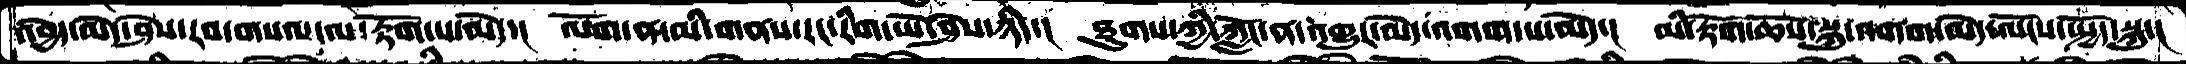འབྱེད་མེད་ཤེས་རབ་གསལ་ལ་རྟོག་པ་མེད་།  ལོག་ན་མི་གནས་རང་རིག་ཡེ་ཤེས་ཉིད་།  ཐུགས་ཀྱི་ཀློང་ན་འགྱུར་མེད་འགག་པ་མེད་།  མི་རྟོག་ཆོས་སྐུ་འགག་མེད་ལོངས་སྤྱོད་སྐུ་།
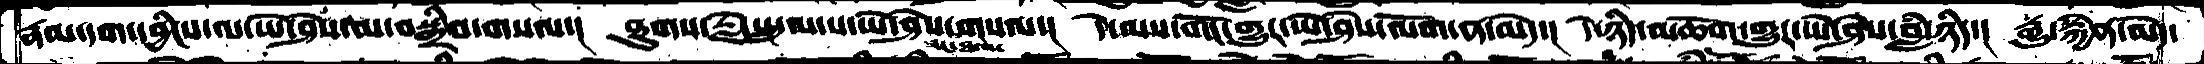རྣམ་དག་དབྱིངས་ལ་ཡེ་ཤེས་མ་བསྒྲིབ་གསལ་།  ཐུགས་རྗེ་སྤྲུལ་པ་ཡེ་ཤེས་ཟང་ཐལ་གསལ་། དེ་ལས་གོང་གྱུར་ཡེ་ཤེས་ལོག་ན་མེད་། དེ་ཉིད་མཆོག་གྱུར་ཡེ་ཤེས་བླཾ་ཉིད་། རྒྱུ་རྐྱེན་མེད་
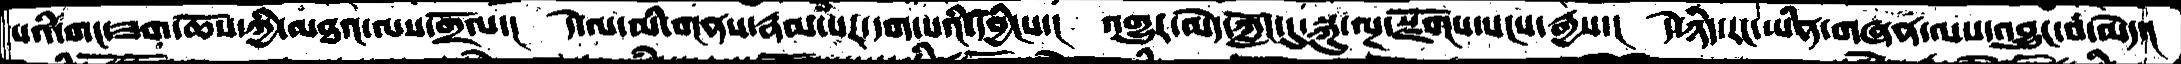པའི་གང་ཟག་ཆོས་ཀྱི་མཐའ་ལས་གྲོལ་།  དེ་ལ་མི་གནས་རྣམ་པར་དག་པའི་དབྱིངས་།  འགྱུར་མེད་ཀློང་དུ་སྐུ་ལྔ་སྫོགས་སངས་རྒྱས་།  དེ་ཉིད་རང་ཡིན་གཞན་ལས་འབྱུང་བ་མེད་།
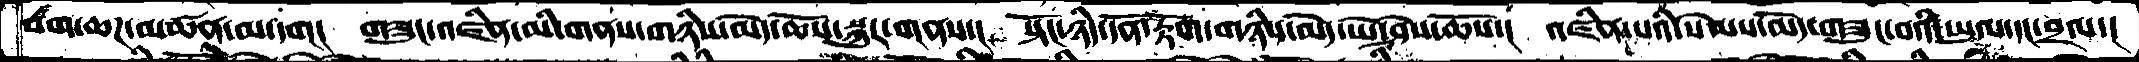བག་ཆཌ་མཚན་མ་དག།  གཟུང་འཛིན་མི་གནས་གཉིས་མེད་ཆོས་སྐུར་གནས་།  སྟོང་ཉིད་དོན་རྟོག་གཉིས་མེད་ཡེ་ཤེས་ཆོས་།  འཛིན་པའི་སེམས་མེད་གཟུང་བའི་ཡུལ་དང་བྲལ་།
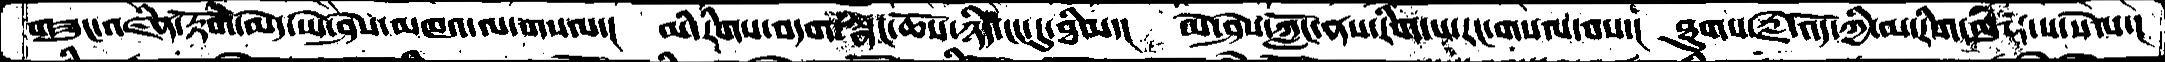གཟུང་འཛིན་རྟོག་མེད་ཡེ་ཤེས་མཁའ་ལ་གསལ་།  མི་རིགས་བདག་སྣང་ཆོས་ཉིད་ངང་དུ་ཐིམ་།  ཡེ་ཤེས་ཀློང་ནས་རིག་པ་རང་གསལ་བས་།   ཐུགས་རྗེ་འོད་ཀྱི་མ་རིག་མུན་པ་སེལ་།
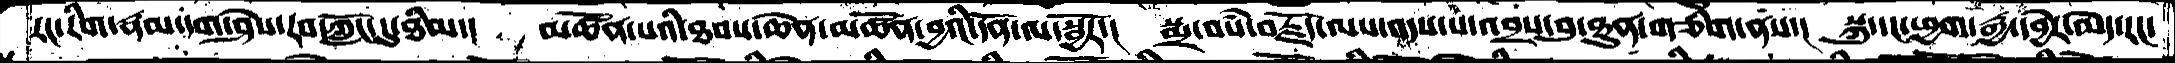རང་རིག་རྣམ་དག་ཤེས་རབ་ཀློང་དུ་ཐིམ་།  མཚོན་པའི་ཐབས་ཆེན་མཚོན་བྱའི་དོན་ལ་སྦྱོར་།  སྨྲ་བསཾ་བརྗོད་ལས་འདས་པ་འབྲས་བུ་ཐུན་གཅིག་ནས་།  སྐུ་དང་ཕྱག་རྒྱ་དབྱེར་མེད་རང་
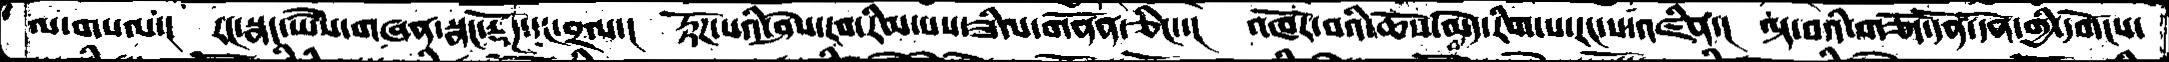ལ་གསལ་།  རང་སྣང་ཡཻས་གཞན་སྣང་རྟོཌ་དང་བྲལ་།  རྟོཌ་པའི་ཤེས་རབ་རིམ་པས་ཟིལ་གནོན་ཅིང་་།  འཁོར་བའི་ཆོས་མེད་རིག་པ་རང་ས་འཛིན་།  ལྟ་བའི་གཅོད་དོན་དོན་གྱི་དགོངས་།
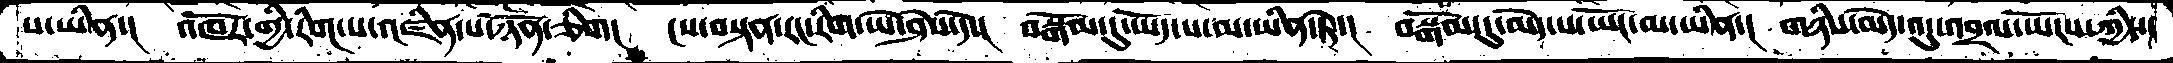པ་ཡིན་།  འཁོར་གྱི་རིག་པ་འཛིན་པ་ཉོན་ཅིག།  ངས་བསྟན་རང་རིག་ཡེ་ཤེས་དེ་།  བསྒོམ་དུ་ཡོད་པ་མ་ཡིན་ཏེ་།  བསྒོམ་དུ་མེད་པ་ཡོད་མ་ཡིན་།  གཉིས་མེད་འདུ་འབྲལ་ཡོངས་ཀྱི་།
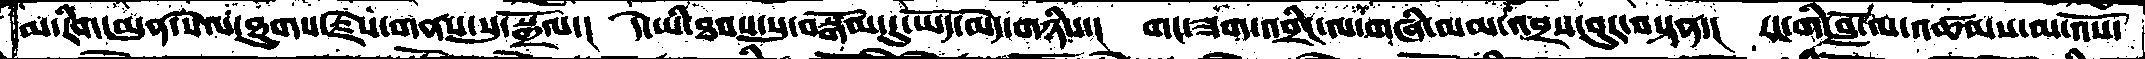མ་རིག་མུན་སེལ་ཐུགས་རྗེས་གནས་སུ་སྒྲོལ་། དེ་ཡི་ཐབས་སུ་བསྒོམ་དུ་ཡོད་མེད་གཉིས་།  གང་ཟག་འབྲིང་ལ་གཞི་ལམ་འབྲས་བུར་བསྟན་།  རང་གི་བློ་ལ་འཚམས་མ་འོས་
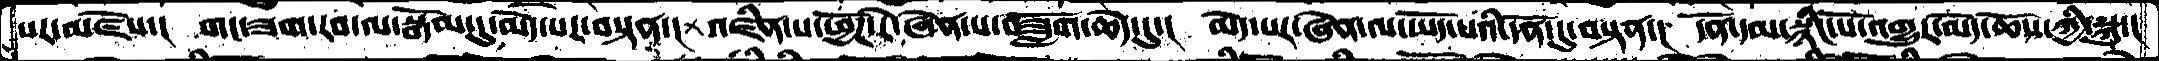པར་མཛེས་།  གང་ཟག་རབ་ལ་སྒོམ་དུ་མེད་པར་བསྟན་། འཛིན་པ་ཕྱོཌ་རེ་ཞེན་པ་བཟློག་ཆེད་དུ་། མེད་པར་ཞེན་ལ་ཡོད་པའི་དོན་དུ་བསྟན་། དོན་དམ་སྙིང་པོ་འགྱུར་མེད་ཆོས་ཀྱི་སྐུ་།
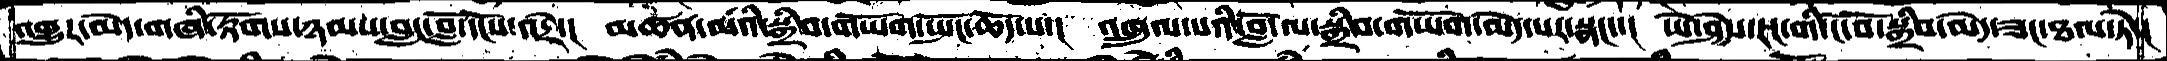འགྱུར་མེད་གཞི་རྟོགས་ཉམས་བླང་བློ་དོངས་འདྲེ་།  མཚན་མའི་སྒྲིབ་གཡོག་སྤོང་ཆོད་པ་།  འཁྲུལ་པའི་བློ་ལ་སྒྲིབ་གཡོག་མེད་པར་སྣང་་།  ཡེ་ཤེས་རང་གི་ངོ་བོ་སྒྲིབ་མེད་ཟང་ཐལ་ཏེ་།
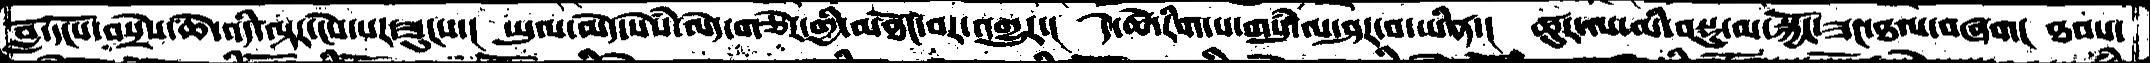བློ་དངོས་བསྲེས་ཆེ་འདི་ལྟར་ངེས་པར་ཟུངས་།  ཡུལ་མེད་སེསཾ་མེད་གཅེར་གྱི་མཐོང་བར་འགྱུར་།  དེ་ཚེ་རིག་པ་གསུཾ་ལ་ཤར་བ་ཡིན་།  ཚུར་ལ་མི་བསྡུ་མ་སྐྱོང་ཟང་ཐལ་བཞག།  ཐབས་
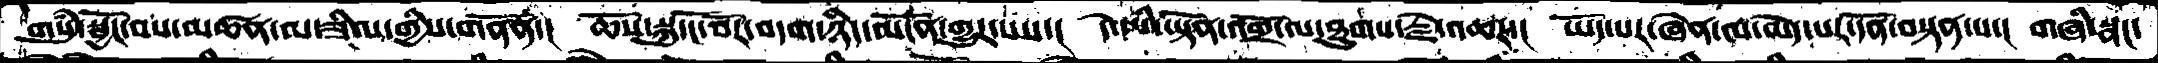གསུཾ་སྦྱོང་བས་མཚན་མ་ཟིལ་གྱིས་གནོན་།  ཆོས་སྐུ་ངོ་བོར་བདག་ཉིད་མངོན་གྱུར་པས་།  དེ་ཡི་ཡྟོན་འགྲོ་ལ་ཐུགས་རྗེ་འཆར་།  ཡོད་པར་ཞེན་ལ་མེད་པར་དོན་བསྟན་པ་།  གཞི་སྣང་
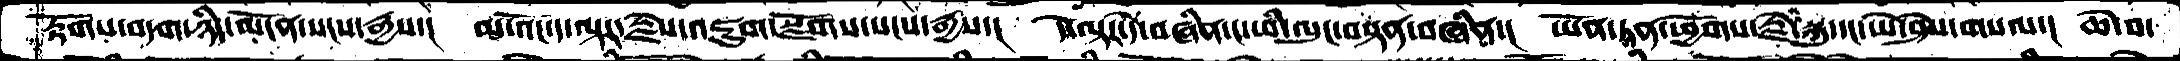རྟོགས་བདག་ཉིད་མངོན་སངས་རྒྱས་།  མ་འོང་ད་ལྟར་རྗེས་འཇུག་སྫོགས་སངས་རྒྱས་།  དེ་ལྟར་དེ་བཞིན་ང་ཡི་ལུང་བསྟན་བཞིན་།  ཡོན་ཏན་ཕྱོགས་རྗེ་སྐུ་དང་ཡེ་ཤེས་གསལ་།  ཆེ་བ་
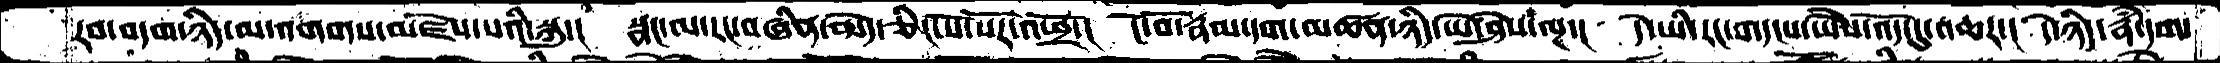རབ་བདག་ཉིད་མ་འགགས་མཛེས་པའི་སྐུ་།  སྣང་ལ་རང་བཞིན་མེད་ཅིང་སོ་སོར་འཕྲོ་།  ངོ་བོ་རྣམ་དག་མཚན་ཉིད་ཡེ་ཤེས་ལྔ་།  དེ་ཡི་རང་གདངས་ཡཻས་འོད་དུ་འཆར་།  དེ་ཉིད་རྣཾ་དག་
